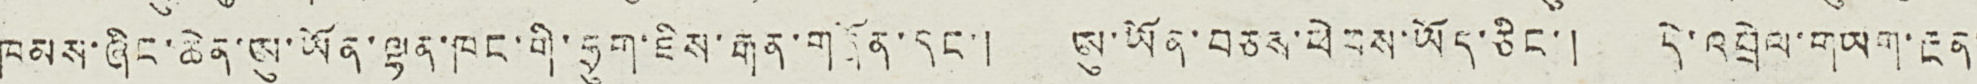ཁམས་ཞིང་ཆེན་ཨུ་ཡོན་ལྷན་ཁང་གི་ཧྲུག་ཇིས་རྒན་གཞོན་དང་། ཨུ་ཡོན་བཅས་ཕེབས་ཡོད་ཅིང་། དེ་འབྲེལ་གཡག་རྔན་
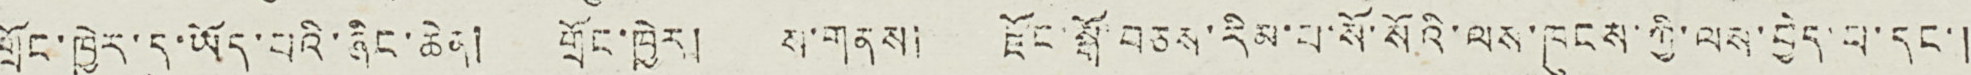གྲོང་ཁྱེར་དུ་ཡོད་པའི་ཞིང་ཆེན། གྲོང་ཁྱེར། ས་གནས། རྫོང་སྒོ་བཅས་རིམ་པ་སོ་སོའི་ལས་ཁུངས་ཀྱི་ལས་བྱེད་པ་དང་།
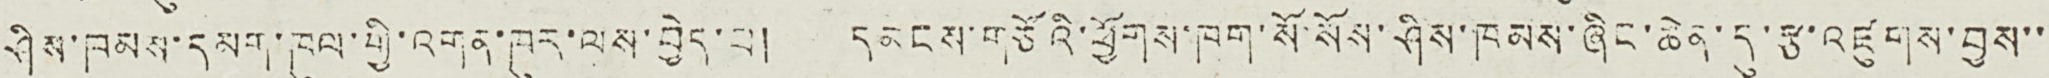ཤིས་ཁམས་དམག་ཁུལ་གྱི་འགན་ཁུར་ལས་བྱེད་པ། དམངས་གཙོའི་ཕྱོགས་ཁག་སོ་སོས་ཤིས་ཁམས་ཞིང་ཆེན་དུ་རྩ་འཛུགས་བྱས་་་
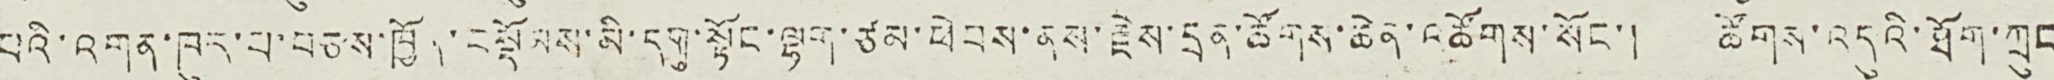པའི་འགན་ཁུར་པ་བཅས་ཁྱོད་བསྡོམས་མི་དགུ་སྟོང་ལྷག་ཙམ་ཕེབས་ནས་རྗེས་དྲན་ཚོགས་ཆེན་འཚོགས་སོང་། ཚོགས་འདུའི་ཐོག་ཀྲུང
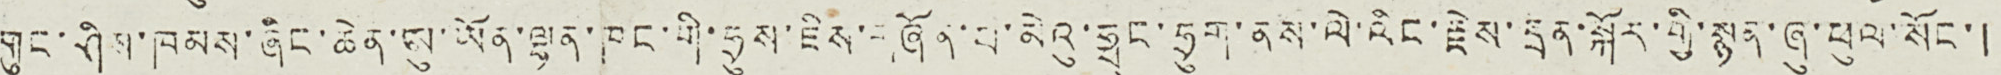གུང་ཤིས་ཁམས་ཞིང་ཆེན་ཨུ་ཡོན་ལྷན་ཁང་གི་ཧྲུས་ཇིས་གཞོན་པ་མེའུ་ཧྥང་ཧྲུག་ནས་ལེ་ལིང་རྗེས་དྲན་སྐོར་གྱི་སྙན་ཞུ་ཕུལ་སོང་།
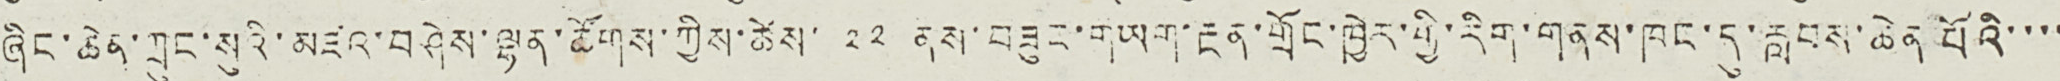ཞིང་ཆེན་ཀྲུང་སུའི་མཛའ་བཤེས་ལྷན་ཚོགས་ཀྱིས་ཚེས་ ༢༢ ནས་བཟུང་གཡན་རྔན་གྲོང་ཁྱེར་གྱི་རིག་གནས་ཁང་དུ་རླབས་ཆེན་པོའི་་་་
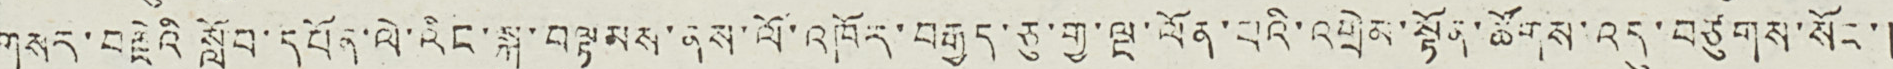གསར་བརྗེའི སློབ་དཔོན་ལེ་ལིང་སྐུ་བལྟམས་ནས་ལོ་འཁོར་བརྒྱད་ཅུ་གྱ་ལྔ་ལོན་པའི་འགྲེམ་སྟོན་ཚོགས་འདུ་བཙུགས་སོང་།
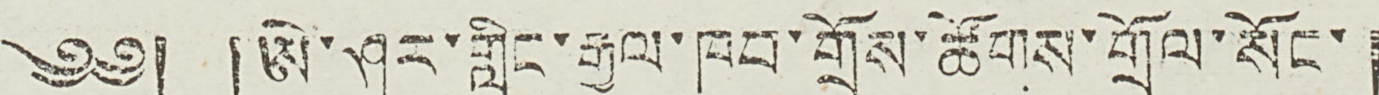༄༅། །ཨེ་ཤར་གླིང་རྒྱལ་ཁབ་གྲོས་ཚོགས་གྲོལ་སོང་།
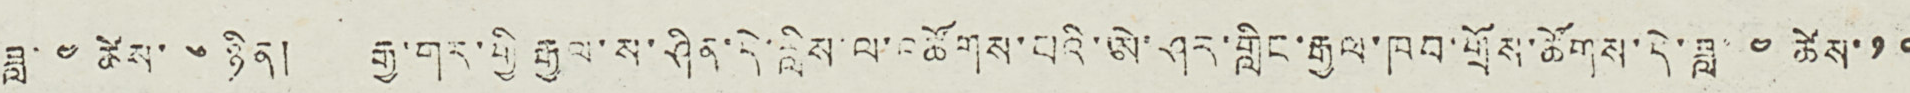ཟླ་ ༤ ཚེས་ ༦ ཉིན། རྒྱ་གར་གྱི རྒྱལ་ས་ཤིན་དེ་གླིས་ལ་འཚོགས་པའི་ཨེ་ཤར་གླིང་རྒྱལ་ཁབ་གྲོས་ཚོགས་དེ་ཟླ་ ༤ ཚེས་ ༡༠
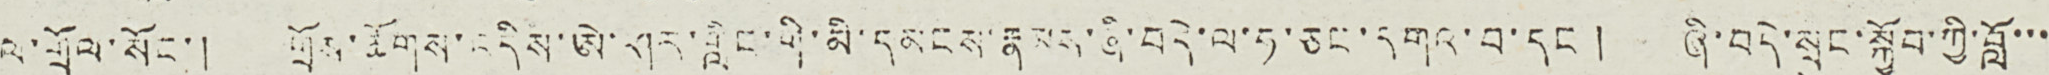ལ་གྲོལ་སོང་། གྲོས་ཚོགས་འདིས་ཨེ་ཤར་གླིང་གི་མི་དམངས་རྣམས་ཞི་བདེ་ལ་ཧ་ཅང་དགའ་བ་དང་། ཞི་བདེ་སྲུང་སྐྱོབ་ཀྱི་བློ་་་་
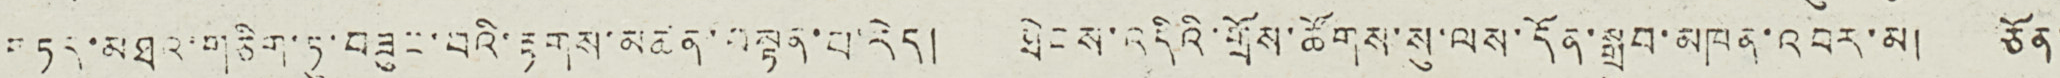གཏད་མཐའ་གཅིག་ཏུ་བཟུང་བའི་རྟགས་མཚན་བསྟན་པ་རེད། ཐིབས་འདིའི་གྲོས་ཚོགས་སུ་ལས་དོན་སྒྲུབ་མཁན་འབར་མ། ཅོན་
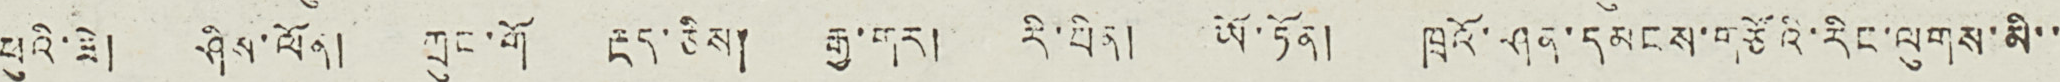ཕུའི་ཇེ། ཤིས་ལོན། ཀྲུང་གོ རྔད་ཅིས། རྒྱ་གར། རི་པིན། ཡོ་ཏོན། ཁྲའོ་ཤན་དམངས་གཙོའི་རིང་ལུགས་མི་་
